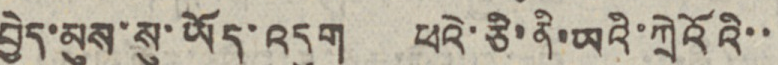བྱེད་མུས་སུ་ཡོད་འདུག ཕའེ་ཅི་ནི་ཡའི་ཀྲེའོའི་་
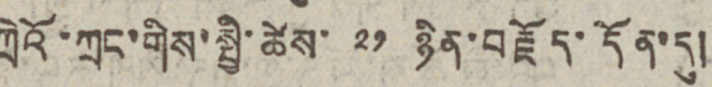ཀྲེའོ་ཀྲང་གིས་སྤྱི་ཚེས་ ༢༡ ཉིན་བརྗོད་དོན་དུ།
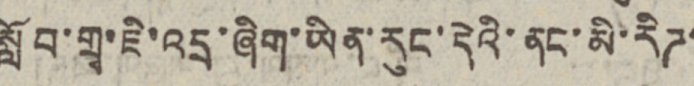སློབ་གྲྭ་ཇི་འདྲ་ཞིག་ཡིན་རུང་དེའི་ནང་མི་རིཊ་
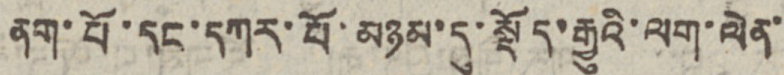ནག་པོ་དང་དཀར་པོ་མཉམ་དུ་སྡོད་རྒྱུའི་ལག་ལེན་
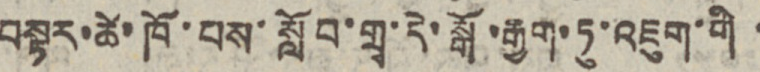བསྟར་ཚེ་ཁོ་པས་སློབ་གྲྭ་དེ་སྒོ་རྒྱག་ཏུ་འཇུག་གི་
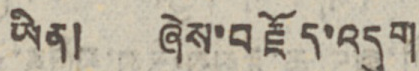ཡིན། ཞེས་བརྗོད་འདུག
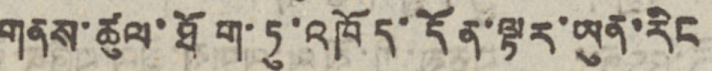གནས་ཚུལ་ཐོག་ཏུ་འཁོད་དོན་ལྟར་ཡུན་རིང
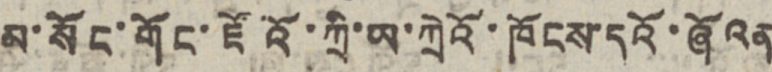མ་སོང་གོང་ཇོའོ་ཀྲི་ཡ་ཀྲེའོ་ཁོངས་དའོ་ཞོའན
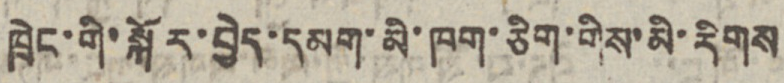ཁྲེང་གི་སྐོར་བྱེད་དམག་མི་ཁག་ཅིག་གིས་མི་རིགས
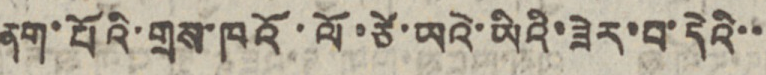ནག་པོའི་གྲས་ཁའོ་ལོ་ཙེ་ཡའེ་ཡིའི་ཟེར་བ་དེའི་་
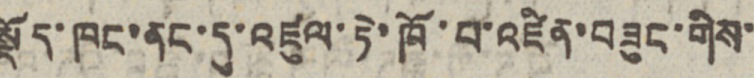སྡོད་ཁང་ནང་དུ་འཛུལ་ཏེ་ཁོ་བ་འཛིན་བཟུང་གིས་
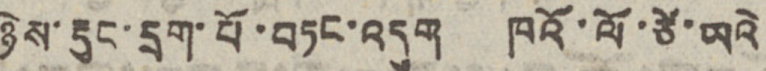ཉེས་རྡུང་དྲག་པོ་བཏང་འདུག ཁའོ་ལོ་ཙེ་ཡའེ
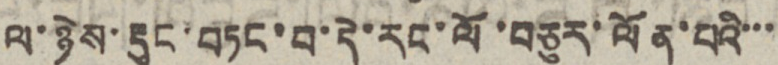ལ་ཉེས་རྡུང་བཏང་བ་དེ་རང་ལོ་བཅུར་ལོན་པའི་་་
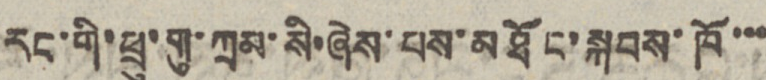རང་གི་ཕྲུ་གུ་ཀྲམ་སི་ཞེས་པས་མཐོང་སྐབས་ཁོ་་་
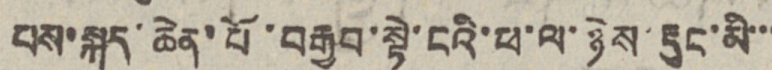པས་སྐད་ཆེན་པོ་བརྒྱབ་སྟེ་ངའི་ཕ་ལ་ཉེས་རྡུང་མི་་་
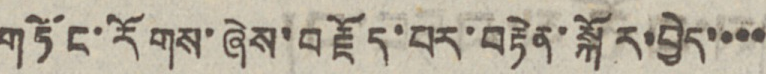གཏོང་རོགས་ཞེས་བརྗོད་པར་བརྟེན་སྐོར་བྱེད་་་་
